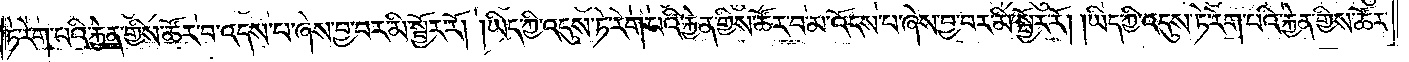ཏེ་རེག་པའི་རྐྱེན་གྱིས་ཚོར་བ་འདས་པ་ཞེས་བྱ་བར་མི་སྦྱོར་རོ། །ཡིད་ཀྱི་འདུས་ཏེ་རེག་པའི་རྐྱེན་གྱིས་ཚོར་བ་མ་འོངས་པ་ཞེས་བྱ་བར་མི་སྦྱོར་རོ། །ཡིད་ཀྱི་འདུས་ཏེ་རེག་པའི་རྐྱེན་གྱིས་ཚོར་
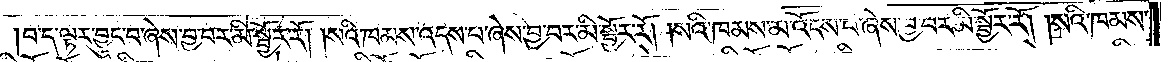བ་ད་ལྟར་བྱུང་བ་ཞེས་བྱ་བར་མི་སྦྱོར་རོ། །སའི་ཁམས་འདས་པ་ཞེས་བྱ་བར་མི་སྦྱོར་རོ། །སའི་ཁམས་མ་འོངས་པ་ཞེས་བྱ་བར་མི་སྦྱོར་རོ། །སའི་ཁམས་
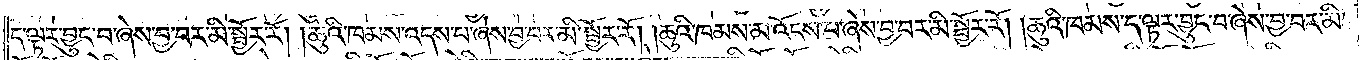ད་ལྟར་བྱུང་བ་ཞེས་བྱ་བར་མི་སྦྱོར་རོ། །ཆུའི་ཁམས་འདས་པ་ཞེས་བྱ་བར་མི་སྦྱོར་རོ། །ཆུའི་ཁམས་མ་འོངས་པ་ཞེས་བྱ་བར་མི་སྦྱོར་རོ། །ཆུའི་ཁམས་ད་ལྟར་བྱུང་བ་ཞེས་བྱ་བར་མི་
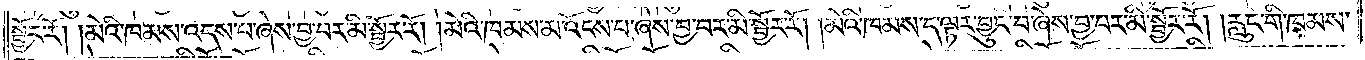སྦྱོར་རོ། །མེའི་ཁམས་འདས་པ་ཞེས་བྱ་བར་མི་སྦྱོར་རོ། །མེའི་ཁམས་མ་འོངས་པ་ཞེས་བྱ་བར་མི་སྦྱོར་རོ། །མེའི་ཁམས་ད་ལྟར་བྱུང་བ་ཞེས་བྱ་བར་མི་སྦྱོར་རོ། །རླུང་གི་ཁམས་
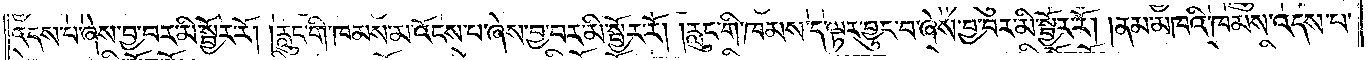འདས་པ་ཞེས་བྱ་བར་མི་སྦྱོར་རོ། །རླུང་གི་ཁམས་མ་འོངས་པ་ཞེས་བྱ་བར་མི་སྦྱོར་རོ། །རླུང་གི་ཁམས་ད་ལྟར་བྱུང་བ་ཞེས་བྱ་བར་མི་སྦྱོར་རོ། །ནམ་མཁའི་ཁམས་འདས་པ་
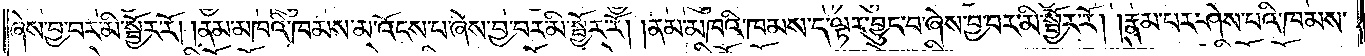ཞེས་བྱ་བར་མི་སྦྱོར་རོ། །ནམ་མཁའི་ཁམས་མ་འོངས་པ་ཞེས་བྱ་བར་མི་སྦྱོར་རོ། །ནམ་མཁའི་ཁམས་ད་ལྟར་བྱུང་བ་ཞེས་བྱ་བར་མི་སྦྱོར་རོ། །རྣམ་པར་ཤེས་པའི་ཁམས་
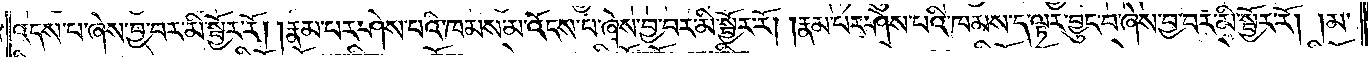འདས་པ་ཞེས་བྱ་བར་མི་སྦྱོར་རོ། །རྣམ་པར་ཤེས་པའི་ཁམས་མ་འོངས་པ་ཞེས་བྱ་བར་མི་སྦྱོར་རོ། །རྣམ་པར་ཤེས་པའི་ཁམས་ད་ལྟར་བྱུང་བ་ཞེས་བྱ་བར་མི་སྦྱོར་རོ། །མ་
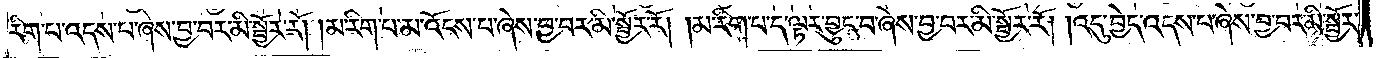རིག་པ་འདས་པ་ཞེས་བྱ་བར་མི་སྦྱོར་རོ། །མ་རིག་པ་མ་འོངས་པ་ཞེས་བྱ་བར་མི་སྦྱོར་རོ། །མ་རིག་པ་ད་ལྟར་བྱུང་བ་ཞེས་བྱ་བར་མི་སྦྱོར་རོ། །འདུ་བྱེད་འདས་པ་ཞེས་བྱ་བར་མི་སྦྱོར་
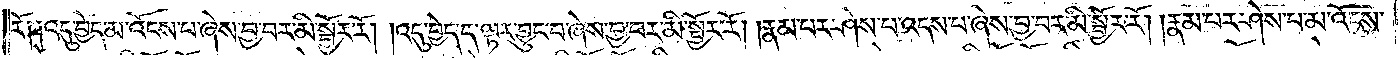རོ༑ ༑འདུ་བྱེད་མ་འོངས་པ་ཞེས་བྱ་བར་མི་སྦྱོར་རོ། །འདུ་བྱེད་ད་ལྟར་བྱུང་བ་ཞེས་བྱ་བར་མི་སྦྱོར་རོ། །རྣམ་པར་ཤེས་པ་འདས་པ་ཞེས་བྱ་བར་མི་སྦྱོར་རོ། །རྣམ་པར་ཤེས་པ་མ་འོངས་
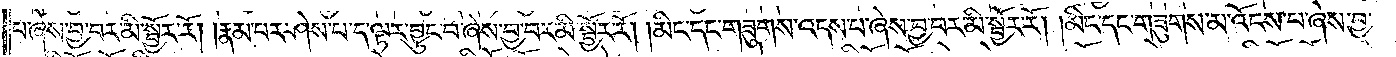པ་ཞེས་བྱ་བར་མི་སྦྱོར་རོ། །རྣམ་པར་ཤེས་པ་ད་ལྟར་བྱུང་བ་ཞེས་བྱ་བར་མི་སྦྱོར་རོ། །མིང་དང་གཟུགས་འདས་པ་ཞེས་བྱ་བར་མི་སྦྱོར་རོ། །མིང་དང་གཟུགས་མ་འོངས་པ་ཞེས་བྱ་
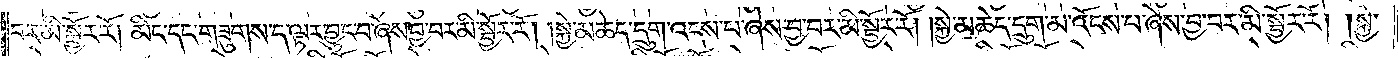བར་མི་སྦྱོར་རོ། མིང་དང་གཟུགས་ད་ལྟར་བྱུང་བ་ཞེས་བྱ་བར་མི་སྦྱོར་རོ། །སྐྱེ་མཆེད་དྲུག་འདས་པ་ཞེས་བྱ་བར་མི་སྦྱོར་རོ། །སྐྱེ་མཆེད་དྲུག་མ་འོངས་པ་ཞེས་བྱ་བར་མི་སྦྱོར་རོ། །སྐྱེ་
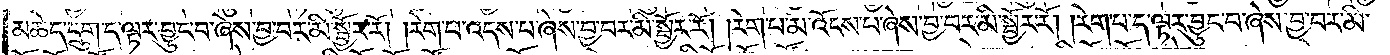མཆེད་དྲུག་ད་ལྟར་བྱུང་བ་ཞེས་བྱ་བར་མི་སྦྱོར་རོ། །རེག་པ་འདས་པ་ཞེས་བྱ་བར་མི་སྦྱོར་རོ། །རེག་པ་མ་འོངས་པ་ཞེས་བྱ་བར་མི་སྦྱོར་རོ། །རེག་པ་ད་ལྟར་བྱུང་བ་ཞེས་བྱ་བར་མི་
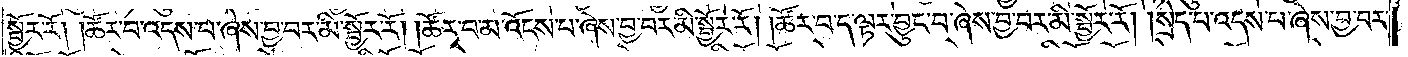སྦྱོར་རོ། །ཚོར་བ་འདས་པ་ཞེས་བྱ་བར་མི་སྦྱོར་རོ། །ཚོར་བ་མ་འོངས་པ་ཞེས་བྱ་བར་མི་སྦྱོར་རོ། །ཚོར་བ་ད་ལྟར་བྱུང་བ་ཞེས་བྱ་བར་མི་སྦྱོར་རོ། །སྲེད་པ་འདས་པ་ཞེས་བྱ་བར་
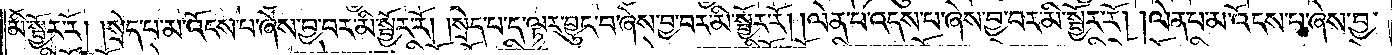མི་སྦྱོར་རོ། །སྲེད་པ་མ་འོངས་པ་ཞེས་བྱ་བར་མི་སྦྱོར་རོ། །སྲེད་པ་ད་ལྟར་བྱུང་བ་ཞེས་བྱ་བར་མི་སྦྱོར་རོ། །ལེན་པ་འདས་པ་ཞེས་བྱ་བར་མི་སྦྱོར་རོ། །ལེན་པ་མ་འོངས་པ་ཞེས་བྱ་
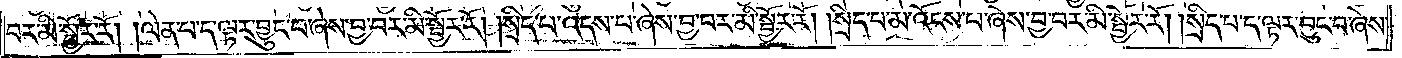བར་མི་སྦྱོར་རོ། །ལེན་པ་ད་ལྟར་བྱུང་བ་ཞེས་བྱ་བར་མི་སྦྱོར་རོ། །སྲིད་པ་འདས་པ་ཞེས་བྱ་བར་མི་སྦྱོར་རོ། །སྲིད་པ་མ་འོངས་པ་ཞེས་བྱ་བར་མི་སྦྱོར་རོ། །སྲིད་པ་ད་ལྟར་བྱུང་བ་ཞེས་
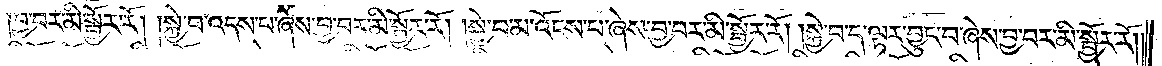བྱ་བར་མི་སྦྱོར་རོ། །སྐྱེ་བ་འདས་པ་ཞེས་བྱ་བར་མི་སྦྱོར་རོ། །སྐྱེ་བ་མ་འོངས་པ་ཞེས་བྱ་བར་མི་སྦྱོར་རོ། །སྐྱེ་བ་ད་ལྟར་བྱུང་བ་ཞེས་བྱ་བར་མི་སྦྱོར་རོ༎
